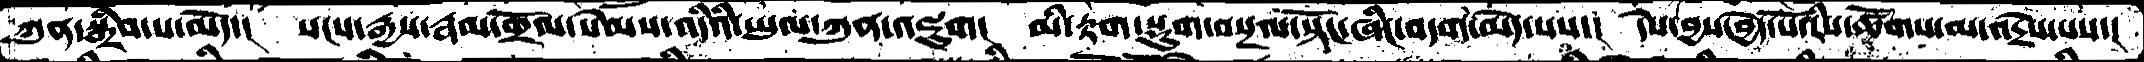ཀུན་སྒྲིབ་པ་མེད་།   སངས་རྒྱས་རྣམ་གྲོལ་སེམས་འདིའི་ཡུལ་ཀུན་འཇུག།  མི་རྟག་སྡུག་བསྔལ་སྟོང་ཞིང་བདག་མེད་པས་།  དེས་བྱས་བྱེད་པོ་རིས་ཚོགས་མ་འདྲེས་པས་།
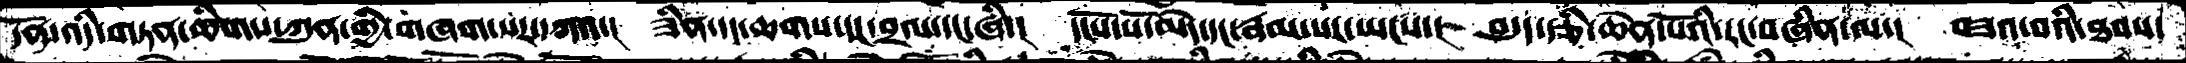དོན་འདི་གཏན་ཚིགས་ཀུན་གྱི་གཞག་པར་དཀའ་།  ཟིན་དང་ཆགས་དང་བྲལ་དང་ཞིང་།  དངོས་པོ་མེད་དང་རྣམ་སར་ཡངས་།   བདུད་རྩི་ཆེན་པོའི་རང་བཞིན་ལ་།  བཟའ་བའི་ཐབས་
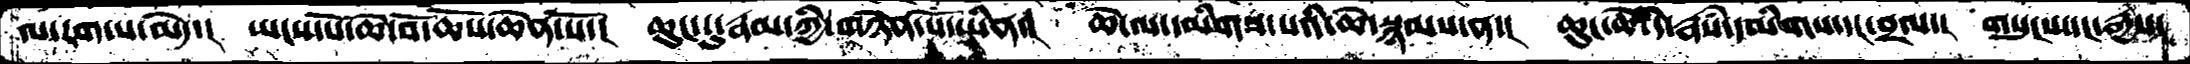ལ་རག་པ་མེད་།   ཡངས་པོ་ཆེ་བོ་ཆོས་ཆེན་པོ་།   ཆུང་ངུ་རྣམ་གྱི་གཉེན་པོ་ཡིན་།  ཆེ་ལ་དམིགས་པའི་ཆེ་སྙམས་ན་།  ཆུང་ཆེ་དེ་རྣཾས་དམིགས་དང་བྲལ་།  གསུངས་དང་རྒྱས་
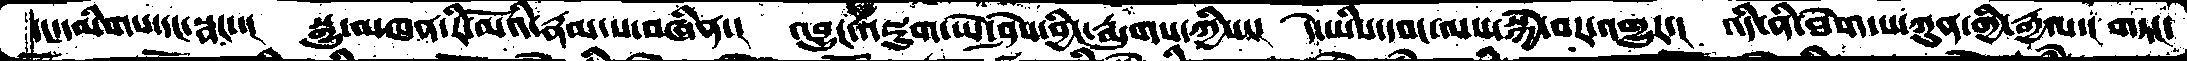དང་དམིགས་དང་སྣང་།   སྒྱུ་མཁན་རི་མོའི་རྣམ་པ་བཞིན་།  འབྱུང་འཇུག་ཡེ་ཤེས་བྱིང་རྨུགས་ཀྱིས་།  དེ་ཡིས་དབང་ལས་སྐྱེ་བར་འགྱུར་།   འདི་ནི་ཐེག་པ་ཀུན་གྱི་རྒྱལ་།  གཏང་
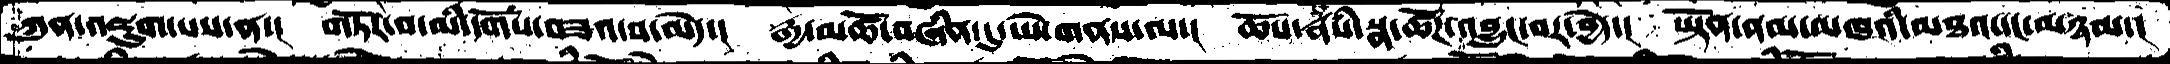ཀུན་འཇུག་པས་ན་།  གཏོར་བ་མི་དགོས་བཟའ་བ་མེད་།  རྒྱ་མཚོ་བཞིན་དུ་ཡེ་གནས་ལ་།  ཆོས་རྣཾས་སྣ་ཚོཌ་འབྱུང་བར་བྱེད་།  ཡྟོན་ནམ་མཁའི་མཐའ་དང་མཉམ་།
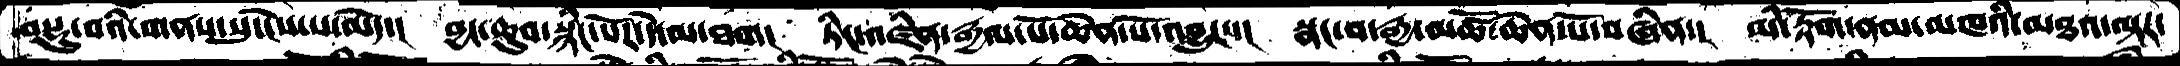བསྡུ་བའི་གནས་སུ་ངེས་པ་མེད་།  བྱང་ཆུབ་སྙིང་པོར་དེ་མ་ཐག་།   ཏིང་འཛིན་རྒྱལ་པོ་ཆེན་པོ་འབྱུང་།   སྣང་བ་རྒྱ་མཚོ་ཆེན་པོ་བཞིན་།  མི་རྟོག་ནམ་མཁའི་མཐའ་ལྟར་
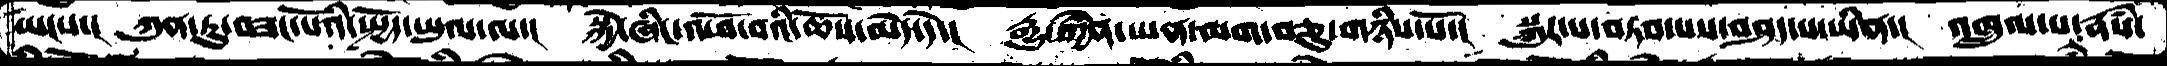ཡངས་།  ཀུན་ཏུ་བཟང་པོའི་སྤྱོད་ཡུལ་ལ་།  སྐྱེ་ཞིང་འཕོ་བའི་ཆོས་མེད་དེ་།  རྒྱུ་རྐྱེན་ཡན་ལག་བཅུ་གཉིས་པོ་།  སྐུར་པ་བཏབ་པས་བཤད་པ་ཡིན་།  འཁྲུལ་པ་རྣཾས་
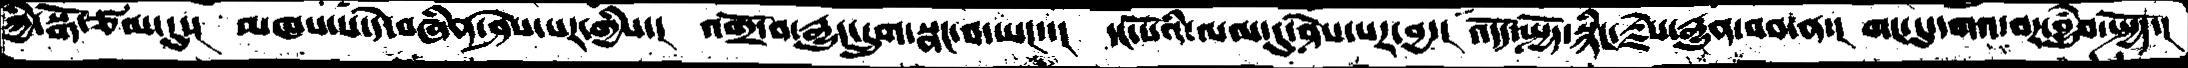ཀྱི་སྒོ་ཙམ་དུ་།  མཁས་པ་དེ་བཞིན་ཤེས་པར་གྱིས་།  འགྲོ་བ་རྒྱུད་དྲུག་སྣང་བ་ཡང་་།  དང་པོའི་ལམ་དུ་ཤེས་པར་བྱ་།  འདོད་སྤྱོད་སྙིང་རྗེས་རྒྱུན་བབ་ན་།  གང་དུ་དགའ་བར་བྱུཾབ་སྤྱོད་།
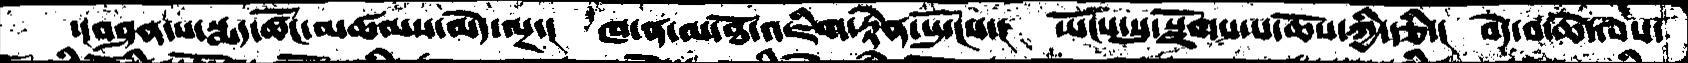་།བཤན་པ་སྨད་ཚོང་མཚམས་མེད་ལྔ་།  ཁ་ན་མ་ཐོ་འཇིག་རྟེན་སྤོངས་།   ཡོངས་སུ་སྫོགས་པ་ཆོས་ཀྱི་རྩི་།  བདེ་བ་ཆེ་ལས་
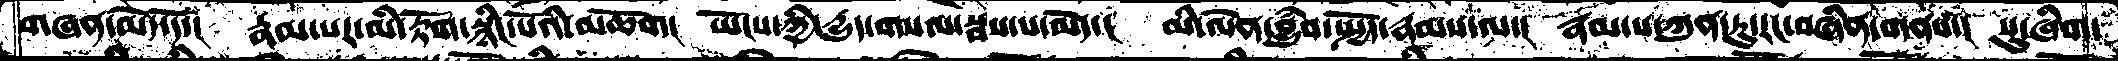གཞན་མེད་དོ་།  རྣམ་པར་མི་རྟོག་སྙིང་པོའི་མཆོག།  ཡོངས་ཀྱི་དྱུད་གསལ་སྦས་པ་མེད་།  མི་ལེན་བྱུཾབ་སྤྱོད་རྣམས་ལ་།  རྣམ་པ་ཀུན་ཏུ་རང་བཞིན་གནས་།  སུ་ཞིག་
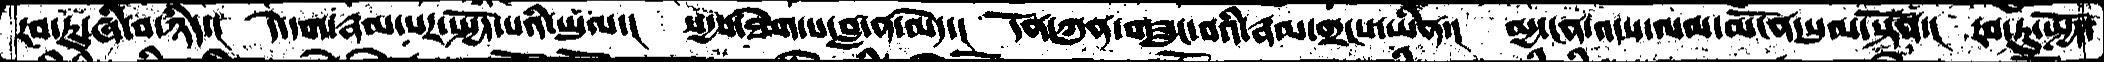རབ་ཏུ་ཞི་བ་ཉིད་།   དེ་དག་རྣམ་པར་སྤྱོད་པའི་ཡུལ་།  སདྱས་ཐེག་པ་བླ་ན་མེད་།  དོན་ཀུན་བཟུང་བའི་རྣམ་གྲངས་ཡིན་།  མྱ་ངན་འདས་ལམ་མངོན་སུམ་སྟོན་།  རབ་ཏུ་སྤྱོད་
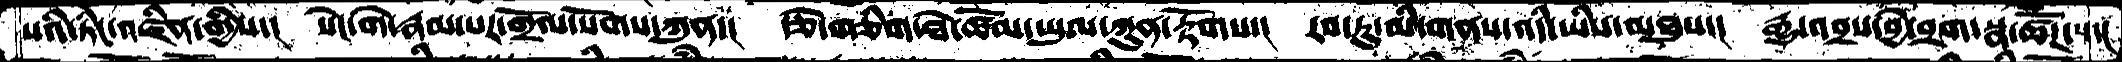པའི་ཏིང་འཛིན་གྱིས་།  སེང་གེ་རྣམ་པར་གྲོལ་སོགས་ཀུན་།  རྩེ་གཅིག་ཐེ་ཚོམ་ཡུལ་ཀུན་རྟོགས་།  རབ་ཏུ་མི་གནས་འདི་ཡིས་མཐུས་།  རྒྱུ་འབྲས་བྱེ་བྲག་སྣ་ཚོགས་དང་།
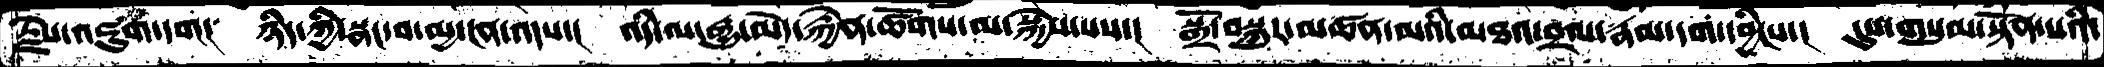རྗེས་འཇུག་དག།  ཉིད་ཀྱི་སྣང་བ་མྱ་ངན་འདས་།  འདི་ལ་རྒྱུ་མེད་རྐྱེན་ཚོགས་མ་སྐྱེས་པས་།  སྒྲོ་བསྐུར་མཚན་མའི་མཐའ་བྲལ་རྣམ་དག་དབྱིངས་།  དུས་གསུམ་སྟོན་པའི་
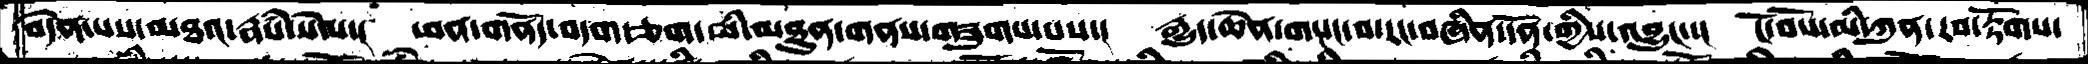བདེན་པས་མཐའ་རྣཾས་སེལ་།  ཕན་གནོད་བདག་ཅན་མི་མཐུན་གནས་གཟུགས་པས་།  རྒྱུད་ཆེན་གསང་བ་རང་བཞིན་དོན་གྱིས་འབྱུང་།  ངོ་བོས་མི་ཀུན་རབ་རྟོགས་
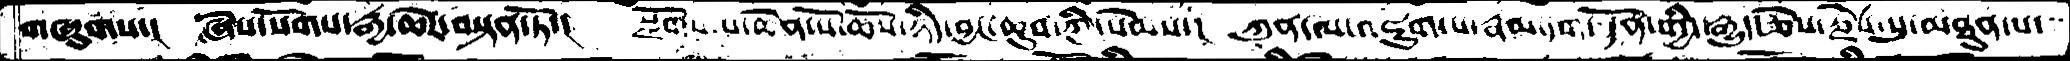གཞུགས་།  ཞེས་སོགས་རྒྱ་ཆེར་བསྟན་ཏོ་།  སྫོགས་པ་ཆེན་པོ་ཆོས་ཉིད་བྱང་ཆུབ་ཀྱི་སེམས་།   ཀུན་ལ་འཇུགས་པ་རྣམ་དག་དོན་གྱི་རྒྱུད་ཅེས་རྗེས་སུ་མཐུན་པ་
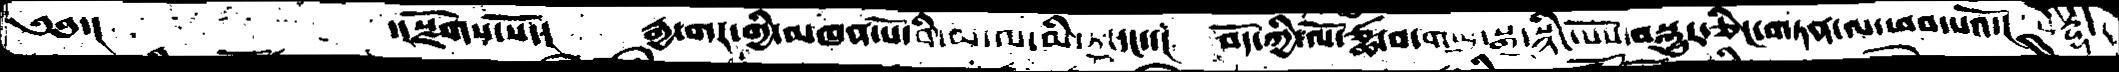༄༅་།          ་།སྫོགས་སོ་།   རྒྱ་གར་གྱི་མཁན་པོ་བི་མ་ལ་མི་ཏྲ་དང་།  བོད་ཀྱི་ལོ་ཙྪ་བ་གཡུ་སྒྲ་སྙིང་པོས་བསྒྱུར་ཅིང་གཏན་ལ་ཕབ་པའོ་།  སིརྡྷི་
